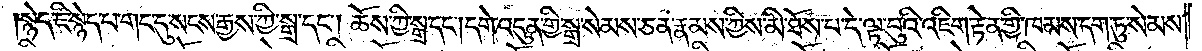སྙེད་ཇི་སྙེད་པ་གང་དུ་སངས་རྒྱས་ཀྱི་སྒྲ་དང༌། ཆོས་ཀྱི་སྒྲ་དང༌། དགེ་འདུན་གྱི་སྒྲ་སེམས་ཅན་རྣམས་ཀྱིས་མི་ཐོས་པ་དེ་ལྟ་བུའི་འཇིག་རྟེན་གྱི་ཁམས་དག་ཏུ་སེམས་
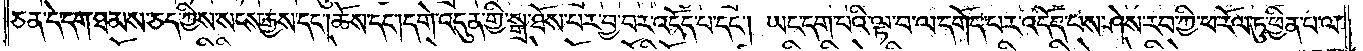ཅན་དེ་དག་ཐམས་ཅད་ཀྱིས་སངས་རྒྱས་དང༌།ཆོས་དང༌།དགེ་འདུན་གྱི་སྒྲ་ཐོས་པར་བྱ་བར་འདོད་པ་དང༌། ཡང་དག་པའི་ལྟ་བ་ལ་དགོད་པར་འདོད་པས་ཤེས་རབ་ཀྱི་ཕ་རོལ་ཏུ་ཕྱིན་པ་ལ་
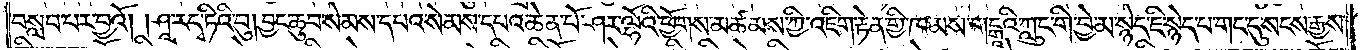བསླབ་པར་བྱའོ། །ཤཱ་ར་དྭ་ཏིའི་བུ། བྱང་ཆུབ་སེམས་དཔའ་སེམས་དཔའ་ཆེན་པོ་ཤར་ལྷོའི་ཕྱོགས་མཚམས་ཀྱི་འཇིག་རྟེན་གྱི་ཁམས་གངྒཱའི་ཀླུང་གི་བྱེ་མ་སྙེད་ཇི་སྙེད་པ་གང་དུ་སངས་རྒྱས་
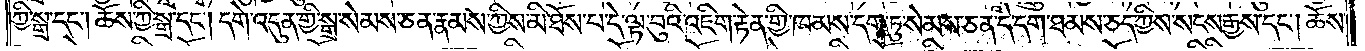ཀྱི་སྒྲ་དང༌། ཆོས་ཀྱི་སྒྲ་དང༌། དགེ་འདུན་གྱི་སྒྲ་སེམས་ཅན་རྣམས་ཀྱིས་མི་ཐོས་པ་དེ་ལྟ་བུའི་འཇིག་རྟེན་གྱི་ཁམས་དག་ཏུ་སེམས་ཅན་དེ་དག་ཐམས་ཅད་ཀྱིས་སངས་རྒྱས་དང༌། ཆོས་
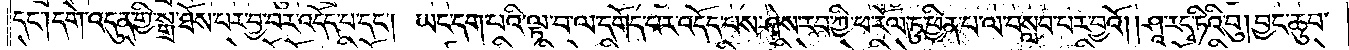དང༌།དགེ་འདུན་གྱི་སྒྲ་ཐོས་པར་བྱ་བར་འདོད་པ་དང༌། ཡང་དག་པའི་ལྟ་བ་ལ་དགོད་པར་འདོད་པས་ཤེས་རབ་ཀྱི་ཕ་རོལ་ཏུ་ཕྱིན་པ་ལ་བསླབ་པར་བྱའོ། །ཤཱ་ར་དྭ་ཏིའི་བུ། བྱང་ཆུབ་
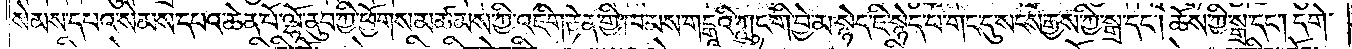སེམས་དཔའ་སེམས་དཔའ་ཆེན་པོ་ལྷོ་ནུབ་ཀྱི་ཕྱོགས་མཚམས་ཀྱི་འཇིག་རྟེན་གྱི་ཁམས་གངྒཱའི་ཀླུང་གི་བྱེ་མ་སྙེད་ཇི་སྙེད་པ་གང་དུ་སངས་རྒྱས་ཀྱི་སྒྲ་དང༌། ཆོས་ཀྱི་སྒྲ་དང༌། དགེ་
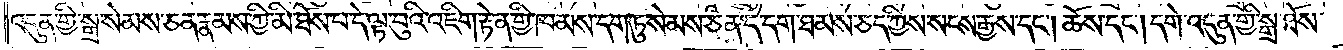འདུན་གྱི་སྒྲ་སེམས་ཅན་རྣམས་ཀྱི་མི་ཐོས་པ་དེ་ལྟ་བུའི་འཇིག་རྟེན་གྱི་ཁམས་དག་ཏུ་སེམས་ཅན་དེ་དག་ཐམས་ཅད་ཀྱིས་སངས་རྒྱས་དང༌། ཆོས་དང༌། དགེ་འདུན་གྱི་སྒྲ་ཐོས་
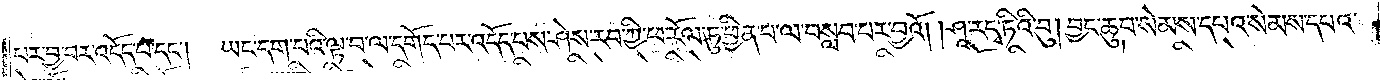པར་བྱ་བར་འདོད་པ་དང༌།  ཡང་དག་པའི་ལྟ་བ་ལ་དགོད་པར་འདོད་པས་ཤེས་རབ་ཀྱི་ཕ་རོལ་ཏུ་ཕྱིན་པ་ལ་བསླབ་པར་བྱའོ། །ཤཱ་ར་དྭ་ཏིའི་བུ། བྱང་ཆུབ་སེམས་དཔའ་སེམས་དཔའ་
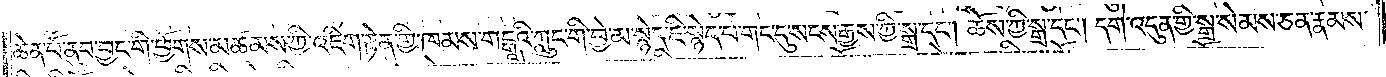ཆེན་པོ་ནུབ་བྱང་གི་ཕྱོགས་མཚམས་ཀྱི་འཇིག་རྟེན་གྱི་ཁམས་གངྒཱའི་ཀླུང་གི་བྱེ་མ་སྙེད་ཇི་སྙེད་པ་གང་དུ་སངས་རྒྱས་ཀྱི་སྒྲ་དང༌། ཆོས་ཀྱི་སྒྲ་དང༌། དགེ་འདུན་གྱི་སྒྲ་སེམས་ཅན་རྣམས་
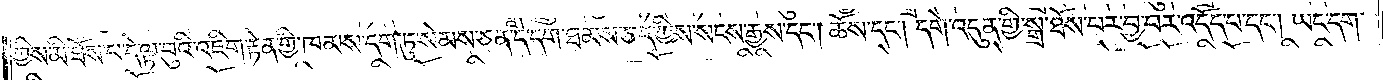ཀྱིས་མི་ཐོས་པ་དེ་ལྟ་བུའི་འཇིག་རྟེན་གྱི་ཁམས་དག་ཏུ་སེམས་ཅན་དེ་དག་ཐམས་ཅད་ཀྱིས་སངས་རྒྱས་དང༌། ཆོས་དང༌། དགེ་འདུན་གྱི་སྒྲ་ཐོས་པར་བྱ་བར་འདོད་པ་དང༌། ཡང་དག་
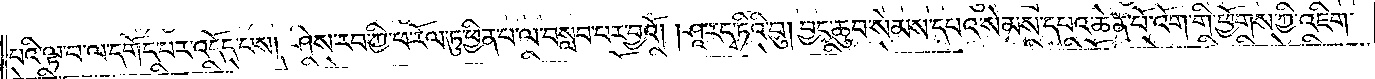པའི་ལྟ་བ་ལ་དགོད་པར་འདོད་པས། ཤེས་རབ་ཀྱི་ཕ་རོལ་ཏུ་ཕྱིན་པ་ལ་བསླབ་པར་བྱའོ། །ཤཱ་ར་དྭ་ཏིའི་བུ། བྱང་ཆུབ་སེམས་དཔའ་སེམས་དཔའ་ཆེན་པོ་འོག་གི་ཕྱོགས་ཀྱི་འཇིག་
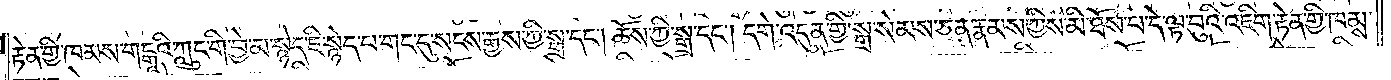རྟེན་གྱི་ཁམས་གངྒཱའི་ཀླུང་གི་བྱེ་མ་སྙེད་ཇི་སྙེད་པ་གང་དུ་སངས་རྒྱས་ཀྱི་སྒྲ་དང༌། ཆོས་ཀྱི་སྒྲ་དང༌། དགེ་འདུན་གྱི་སྒྲ་སེམས་ཅན་རྣམས་ཀྱིས་མི་ཐོས་པ་དེ་ལྟ་བུའི་འཇིག་རྟེན་གྱི་ཁམས་
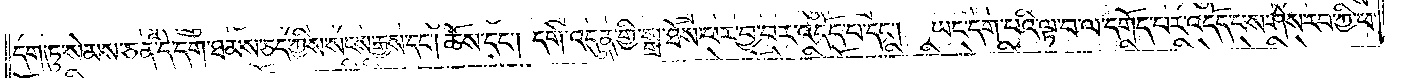དག་ཏུ་སེམས་ཅན་དེ་དག་ཐམས་ཅད་ཀྱིས་སངས་རྒྱས་དང༌། ཆོས་དང༌། དགེ་འདུན་གྱི་སྒྲ་ཐོས་པར་བྱ་བར་འདོད་པ་དང༌། ཡང་དག་པའི་ལྟ་བ་ལ་དགོད་པར་འདོད་པས་ཤེས་རབ་ཀྱི་ཕ་
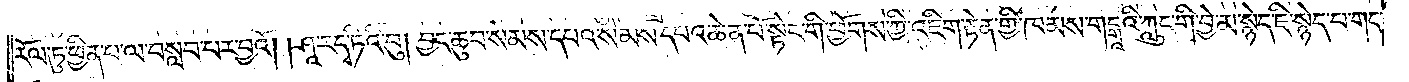རོལ་ཏུ་ཕྱིན་པ་ལ་བསླབ་པར་བྱའོ། །ཤཱ་ར་དྭ་ཏིའི་བུ། བྱང་ཆུབ་སེམས་དཔའ་སེམས་དཔའ་ཆེན་པོ་སྟེང་གི་ཕྱོགས་ཀྱི་འཇིག་རྟེན་གྱི་ཁམས་གངྒཱའི་ཀླུང་གི་བྱེ་མ་སྙེད་ཇི་སྙེད་པ་གང་
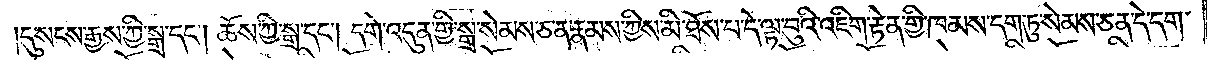དུ་སངས་རྒྱས་ཀྱི་སྒྲ་དང༌། ཆོས་ཀྱི་སྒྲ་དང༌། དགེ་འདུན་གྱི་སྒྲ་སེམས་ཅན་རྣམས་ཀྱིས་མི་ཐོས་པ་དེ་ལྟ་བུའི་འཇིག་རྟེན་གྱི་ཁམས་དག་ཏུ་སེམས་ཅན་དེ་དག་
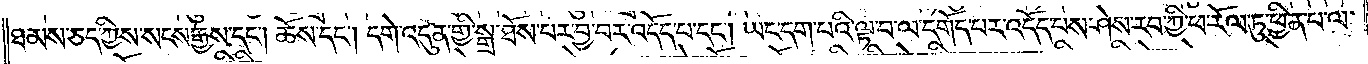ཐམས་ཅད་ཀྱིས་སངས་རྒྱས་དང༌། ཆོས་དང༌། དགེ་འདུན་གྱི་སྒྲ་ཐོས་པར་བྱ་བར་འདོད་པ་དང༌། ཡང་དག་པའི་ལྟ་བ་ལ་དགོད་པར་འདོད་པས་ཤེས་རབ་ཀྱི་ཕ་རོལ་ཏུ་ཕྱིན་པ་ལ་
